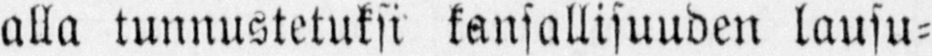alla tunnustetuksi kansallisuuden lausu-
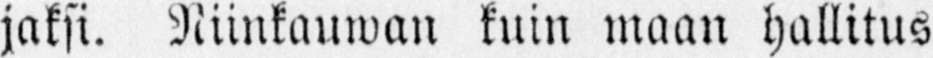jaksi. Niinkauwan kuin maan hallitus
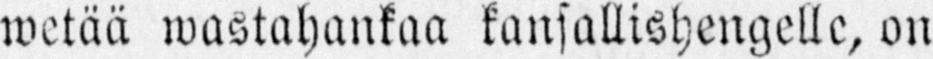wetää wastahankaa kansallishengelle, on
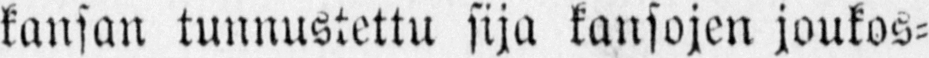kansan tunnustettu sija kansojen joukos-
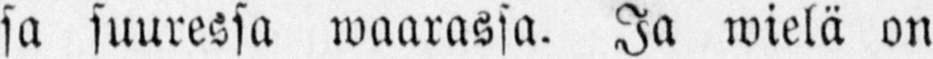sa suuressa waarassa. Ja wielä on
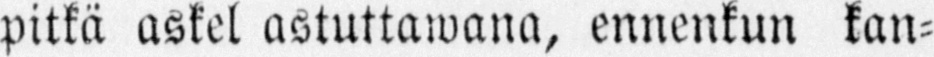pitkä askel astuttawana, ennenkun kan-
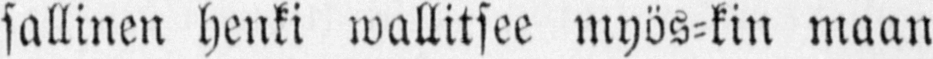sallinen henki wallitsee myös-kin maan
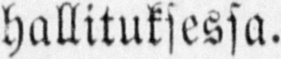hallituksessa.
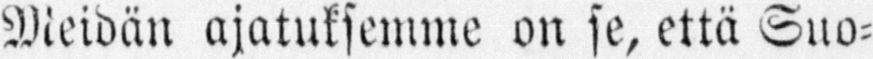Meidän ajatuksemme on se, että Suo-
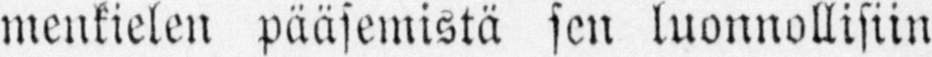menkielen pääsemistä sen luonnollisiin
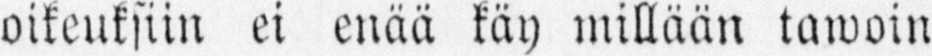oikeuksiin ei enää käy millään tawoin
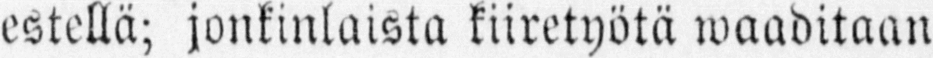estellä; jonkinlaista kiiretyötä waaditaan
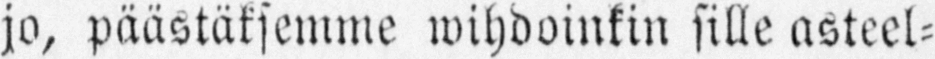jo, päästäksemme wihdoinkin sille asteel-
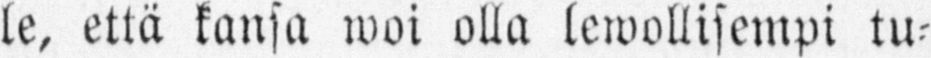le, että kansa woi olla lewollisempi tu-
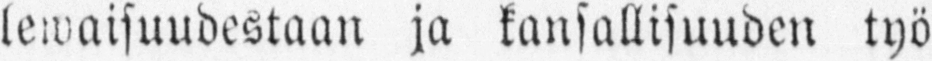lewaisuudestaan ja kansallisuuden työ
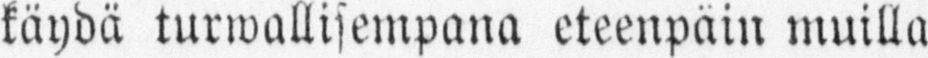käydä turwallisempana eteenpäin muilla
